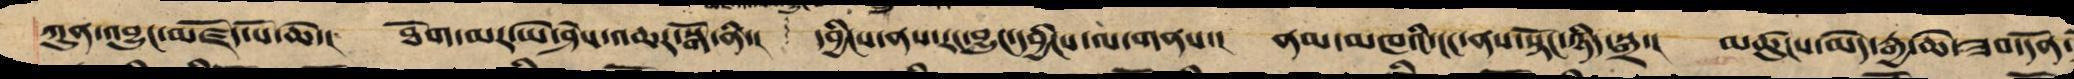ཀུན་འབྱུང་མཛོད་པོ་ཆེ་། ཐོག་མར་ཡེ་ཤེས་འཆར་སྒོ་ནི་། དབྱིངས་ནས་རང་བྱུང་དབྱིངས་ལ་གནས་། ནམ་མཁའི་ངང་ནས་སྟོང་ཉིད་སྒྲ་། མཚུངས་མེད་རྒྱ་ཆེ་ཟབ་དོན་
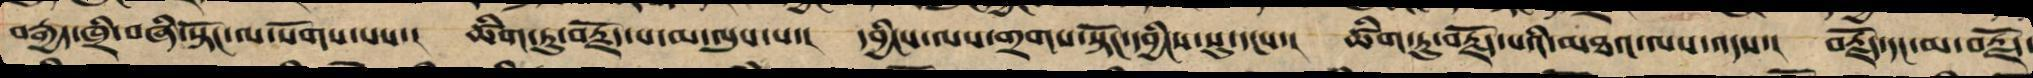བརྒྱད་ཁྲི་བཞི་སྟོང་ལ་སོགས་པས་། ཚིག་ཏུ་བརྗོད་པ་མ་ལུས་པ་། དབྱིངས་ལས་གྲགས་སྟོང་དབྱིངས་སུ་དངས་། ཚིག་ཏུ་བརྗོད་པའི་མཐའ་ལས་འདས་། བརྗོད་དང་མ་བརྗོད་
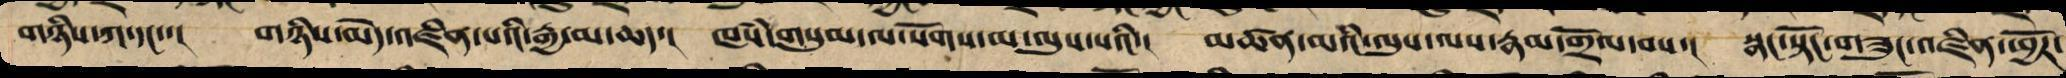གཉིས་ཀ་དང་་། གཉིས་མེད་འཛིན་པའི་རྒྱ་མ་ཆད་། ཁཾས་གསུམ་ལ་སོགས་མ་ལུས་པའི་། མཚན་མའི་ལུས་ལས་རྣམ་གྲོལ་བས་། སྣང་སྟོང་གཟུང་འཛིན་ཕྱོཌ་
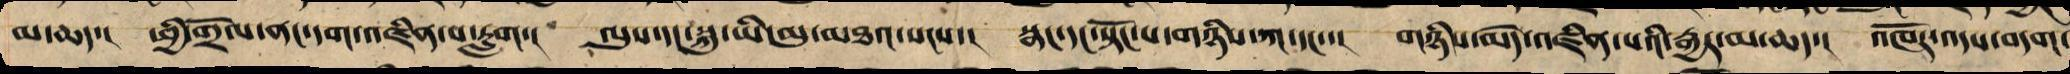མ་ཆད་། ཕྱི་གྲོལ་ནང་དག་འཛིན་པ་རླག་། ལུས་དང་སྐུ་ཡི་མུ་མཐའ་སངས་། སྣང་དང་སྟོང་པ་གཉིས་ཀ་དང་་། གཉིས་མེད་འཛིན་པའི་རྒྱར་མ་ཆད་། འཁོར་འདས་བདག་
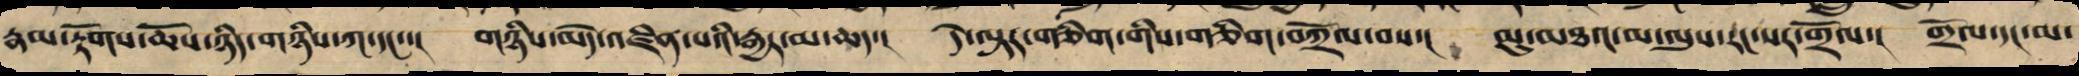རྣམ་རྟོགས་ཆོས་ཉིད་གཉིས་ཀ་དང་་། གཉིས་མེད་འཛིན་པའི་རྒྱར་མ་ཆད་། དེ་ལྟར་གཅིག་གིས་གཅིག་བཀྲོལ་བས་། མུ་མཐའ་མ་ལུས་རང་སར་གྲོལ་། གྲོལ་དང་མ་
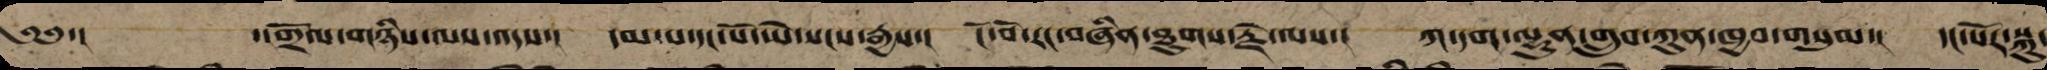༄༅་། ་།གྲོལ་གཉིས་ལས་འདས་། དམ་པ་དང་པོ་ཡེ་སངས་རྒྱས་། ངོ་བོ་རང་བཞིན་ཐུགས་རྗེ་ལས་། ཀ་དག་ལྷུན་གྲུབ་ཀུན་ཁྱབ་གསུམ་། དང་པོར་སྐུ་
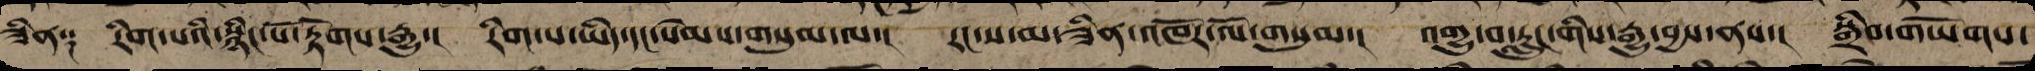ཟིན༑ རིག་པའི་སྙིང་པོ་རྟོགས་རྒྱུ་། རིག་པ་ཡིད་དང་སེམས་གསུམ་ལ་། རང་ས་མ་ཟིན་འཁོར་ལོ་གསུམ་། འགྱུ་བ་རླུང་གིས་རྒྱུ་བྱས་ནས་། སྒྲིབ་གཡོགས་
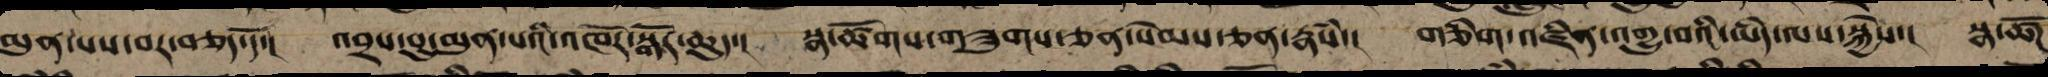མུན་པས་བར་བཅད་དོ་། འབྲས་བུ་མུན་པའི་འཁོར་སྒོར་ཆུད་། སྣ་ཚོགས་གཟུགས་ཅན་སེམས་ཅན་རྣཾས་། གཅིག་འཛིན་འགྱུ་བའི་ཡིད་ལས་སྐྱེས་། སྣ་ཚོཌ
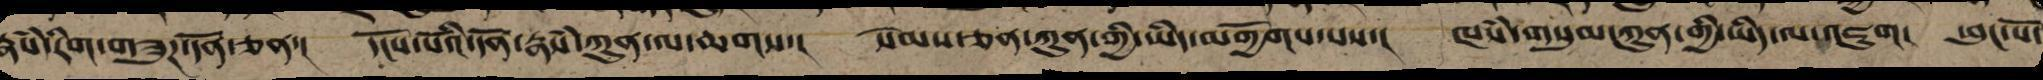རྣཾས་རིག་གཟུཌ་དོན་ཅན་། དངོས་པོའི་དོན་རྣཾས་ཀུན་ལ་ཆགས་། སེམས་ཅན་ཀུན་གྱི་ཡིད་མགྱོགས་པས་། ཁཾས་གསུམ་ཀུན་གྱི་ཡིད་ལ་འཇུག། ཕུང་པོ་
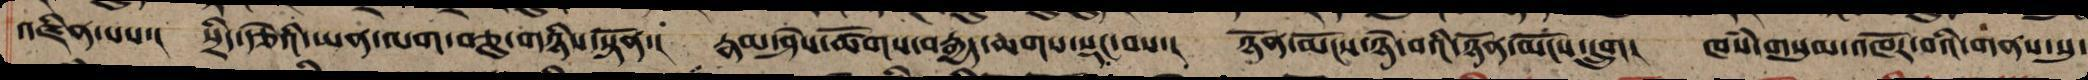འཛིན་པས་། སྲིད་རྩེའི་ཡན་ལག་བཅུ་གཉིས་སྟོན་། རྣམ་ཤེས་ཚོགས་བརྒྱད་ཆགས་སྡང་བས་། ཉོན་མོངས་ཉེ་བའི་ཉོན་མོངས་དྲུག། ཁཾས་གསུམ་འཁོར་བའི་གནས་སུ་
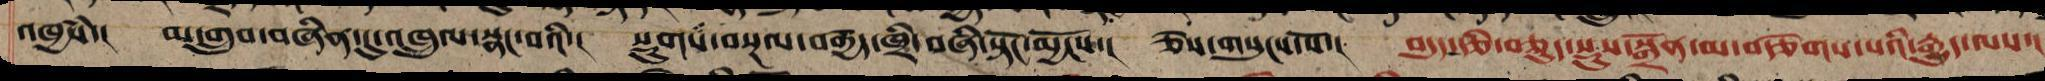འཁྱཾས་། མ་གྲུབ་བཞིན་དུ་འཁྲུལ་སྣང་བའི་། སྡུག་བསྔལ་བརྒྱད་ཁྲི་བཞི་སྟོང་མྱོང་་། ཅེས་གསུངས་སོ་། བདུད་རྩི་བཅུད་སྡུས་སྒྲོན་མ་བརྩེགས་པའི་རྒྱུད་ལས་།
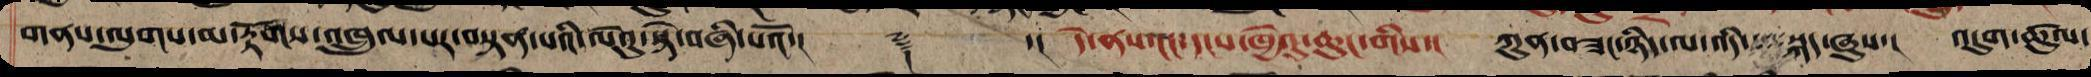གནས་ལུགས་མ་རྟོགས་འཁྲུལ་པར་བསྟན་པའི་ལེའུ་སྟེ་བཞི་པའོ་།། ༈ ་། དེ་ནས་ངང་དངས་ཁྱེའུ་ཆུང་གིས་། ཀུན་བཟང་ཉིད་ལ་འདི་ སྐད་ཞུས་། འདུག་ཚུལ་
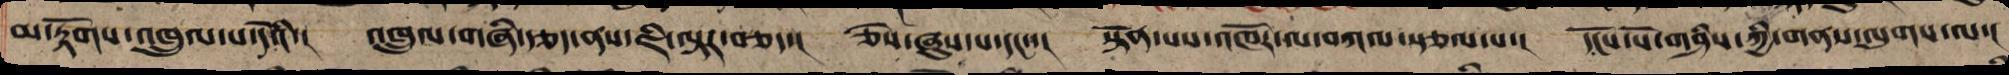མ་རྟོགས་འཁྲུལ་པ་དེའི་། འཁྲུལ་གཞི་རྩད་ནས་ཇི་ལྟར་གཅད་། ཅེས་ཞུས་པ་དང་་། སྟོན་པས་འཁོར་ལ་བཀའ་སྩལ་པ་། དངོས་པོ་གཤིས་ཀྱི་གནས་ལུགས་ལ་།
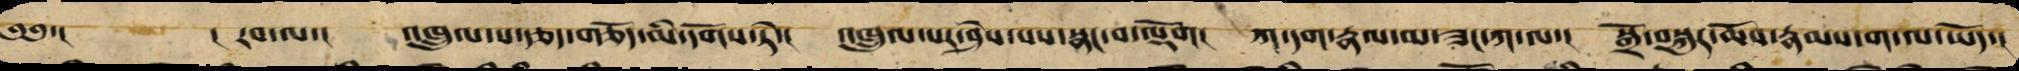༄༅་། །རབ་ལ་། འཁྲུལ་པ་རྩད་གཅོད་མི་དགོས་ཏེ་། འཁྲུལ་པར་ཤེས་པས་སྣང་བ་ལྡོག། ཀ་དག་རྣལ་མ་ཟང་ཀ་ལ་། སྒྲོ་སྐུར་ཆོས་རྣམས་ག་ལ་ཡོད་།
